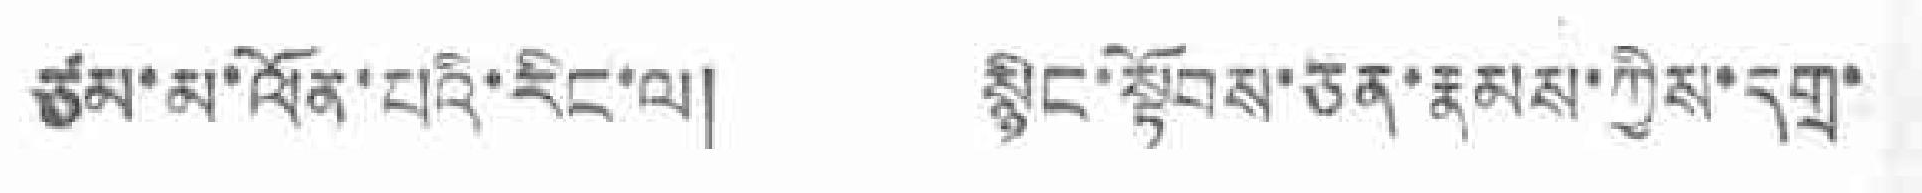ཙམ་མ་ལོན་པའི་རིང་ལ། སྙིང་སྟོབས་ཅན་རྣམས་ཀྱིས་དགྲ་
